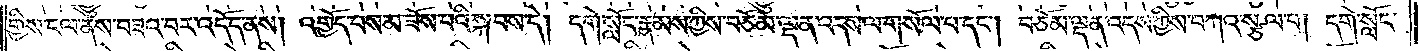གྱིས་ངལ་ནས་བཟའ་བར་འདོད་ནས། འགྱོད་པས་མ་ཟོས་པའི་སྐབས་དེ། དགེ་སློང་རྣམས་ཀྱིས་བཅོམ་ལྡན་འདས་ལ་གསོལ་པ་དང༌། བཅོམ་ལྡན་འདས་ཀྱིས་བཀའ་སྩལ་པ། དགེ་སློང་
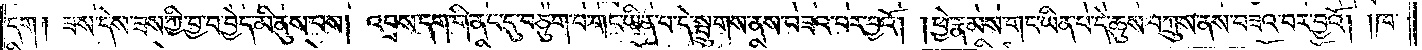དག །ཟས་དེས་ཟས་ཀྱི་བྱ་བ་བྱེད་མི་ནུས་པས། འབྲས་དག་གི་ནང་དུ་བཅུག་པ་གང་ཡིན་པ་དེ་སྤྲུགས་ནས་བཟའ་བར་བྱའོ། །ཕྱེ་རྣམས་གང་ཡིན་པ་དེ་ཆུས་བཀྲུས་ནས་བཟའ་བར་བྱའོ། །ཁ་
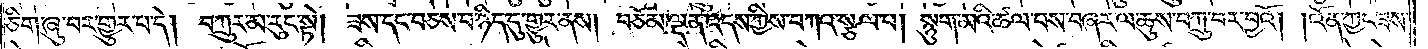ཅིག་ཞུ་བར་གྱུར་པ་དེ། བཀྲུར་མ་རུང་སྟེ། ཟས་དང་བཅས་པ་ཉིད་དུ་གྱུར་ནས། བཅོམ་ལྡན་འདས་ཀྱིས་བཀའ་སྩལ་པ། སྙུག་མའི་ཚལ་བས་བཞར་ལ་ཆུས་བཀྲུ་བར་བྱའོ། །འོན་ཀྱང་ཟས་
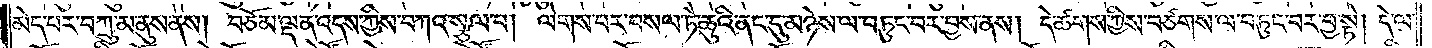མེད་པར་བཀྲུ་མ་ནུས་ནས། བཅོམ་ལྡན་འདས་ཀྱིས་བཀའ་སྩལ་པ། ལེགས་པར་བསལ་ཏེ་ཆུའི་ནང་དུ་མཉེས་ལ་བཏུང་བར་བྱས་ནས། དེ་ཚགས་ཀྱིས་བཙགས་ལ་བཏུང་བར་བྱ་སྟེ། དེ་ལ་
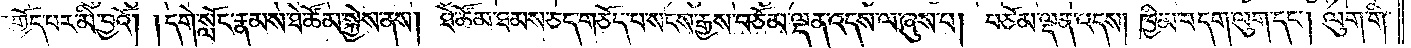འགྱོད་པར་མི་བྱའོ། །དགེ་སློང་རྣམས་ཐེ་ཚོམ་སྐྱེས་ནས། ཐེ་ཚོམ་ཐམས་ཅད་གཅོད་པ་སངས་རྒྱས་བཅོམ་ལྡན་འདས་ལ་ཞུས་པ། བཅོམ་ལྡན་འདས། ཁྱིམ་བདག་ལུག་དང༌། ལུག་གི་
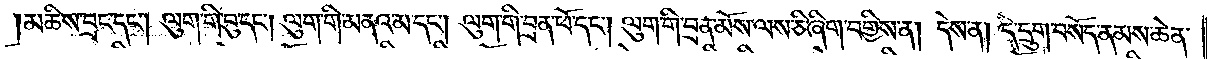།མཆིས་བྲང་དང༌། ལུག་གི་བུ་དང༌། ལུག་གི་མནའ་མ་དང༌། ལུག་གི་བྲན་ཕོ་དང༌། ལུག་གི་བྲན་མོས་ལས་ཅི་ཞིག་བགྱིས་ན། དེས་ན། དེ་དྲུག་བསོད་ནམས་ཆེན་
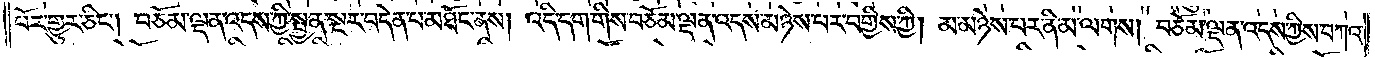པོར་གྱུར་ཅིང༌། བཅོམ་ལྡན་འདས་ཀྱི་སྤྱན་སྔར་བདེན་པ་མཐོང་ནས། འདི་དག་གིས་བཅོམ་ལྡན་འདས་མཉེས་པར་བགྱིས་ཀྱི། མ་མཉེས་པར་ནི་མ་ལགས། བཅོམ་ལྡན་འདས་ཀྱིས་བཀའ་
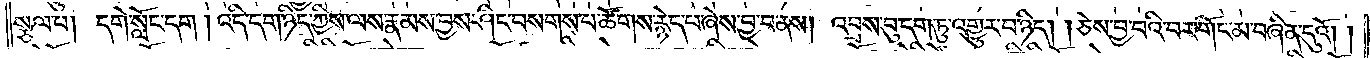སྩལ་པ། དགེ་སློང་དག །འདི་དག་ཉིད་ཀྱིས་ལས་རྣམས་བྱས་ཤིང་བསགས་པ་ཚོགས་རྙེད་པ་ཞེས་བྱ་བ་ནས། འབྲས་བུ་དག་ཏུ་འགྱུར་བ་ཉིད། །ཅེས་བྱ་བའི་བར་གོང་མ་བཞིན་དུའོ། །
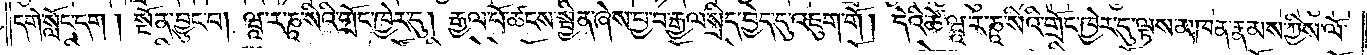དགེ་སློང་དག །སྔོན་བྱུང་བ། ཝཱ་ར་ཎཱ་སིའི་གྲོང་ཁྱེར་དུ། རྒྱལ་པོ་ཚངས་སྦྱིན་ཞེས་བྱ་བ་རྒྱལ་སྲིད་བྱེད་དུ་འཇུག་གོ། དེའི་ཚེ་ཝཱ་ར་ཎཱ་སིའི་གྲོང་ཁྱེར་དུ་ལྟས་མཁན་རྣམས་ཀྱིས་ལོ་
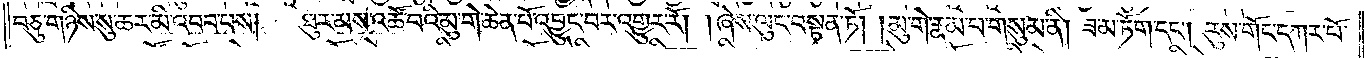བཅུ་གཉིས་སུ་ཆར་མི་འབབ་པས། ཐུར་མས་འཚོ་བའི་མུ་གེ་ཆེན་པོ་འབྱུང་བར་འགྱུར་རོ། །ཞེས་ལུང་བསྟན་ཏོ། །མུ་གེ་རྣམ་པ་གསུམ་ནི། ཟ་མ་ཏོག་དང༌། རུས་གོང་དཀར་པོ་
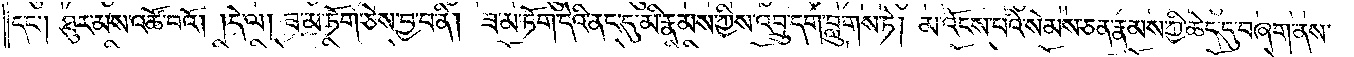དང༌། ཐུར་མས་འཚོ་བའོ། །དེ་ལ། ཟ་མ་ཏོག་ཅེས་བྱ་བ་ནི། ཟ་མ་ཏོག་དེའི་ནང་དུ་མི་རྣམས་ཀྱིས་འབྲུ་དག་བླུགས་ཏེ། མ་འོངས་པའི་སེམས་ཅན་རྣམས་ཀྱི་ཆེད་དུ་བཞག་ནས་
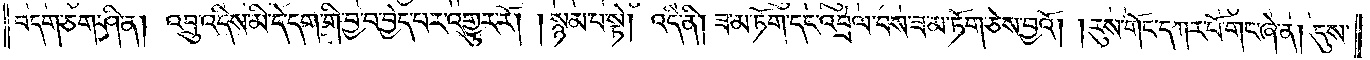བདག་ཅག་ཤི་ན། འབྲུ་འདིས་མི་དེ་དག་གི་བྱ་བ་བྱེད་པར་འགྱུར་རོ། །སྙམ་པ་སྟེ། འདི་ནི། ཟ་མ་ཏོག་དང་འབྲེལ་བས་ཟ་མ་ཏོག་ཅེས་བྱའོ། །རུས་གོང་དཀར་པོ་གང་ཞེ་ན། དུས་
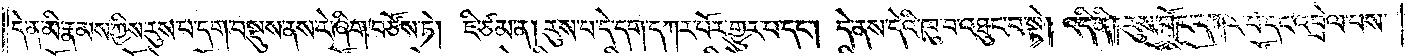དེ་ན་མི་རྣམས་ཀྱིས་རུས་པ་དག་བསྡུས་ནས་རེ་ཞིག་བཙོས་ཏེ། ཇི་ཙམ་ན། རུས་པ་དེ་དག་དཀར་པོར་གྱུར་པ་དང༌། དེ་ནས་དེའི་ཁུ་བ་འཐུང་བ་སྟེ། འདི་ནི། རུས་གོང་དཀར་པོ་དང་འབྲེལ་པས་
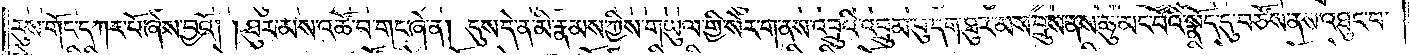རུས་གོང་དཀར་པོ་ཞེས་བྱའོ། །ཐུར་མས་འཚོ་བ་གང་ཞེ་ན། དུས་དེ་ན་མི་རྣམས་ཀྱིས་གཡུལ་གྱི་སེར་གནས་འབྲུའི་འབྲུམ་བུ་དག་ཐུར་མས་བྲུས་ནས་ཆུ་མང་པོའི་སྣོད་དུ་བཙོས་ནས་འཐུང་བ་
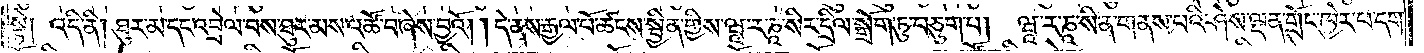སྟེ། འདི་ནི། ཐུར་མ་དང་འབྲེལ་བས་ཐུར་མས་འཚོ་བ་ཞེས་བྱའོ། །དེ་ནས་རྒྱལ་པོ་ཚངས་སྦྱིན་གྱིས་ཝཱ་ར་ཎཱ་སིར་དྲིལ་སྒྲོག་ཏུ་བཅུག་པ། ཝཱ་ར་ཎཱ་སི་ན་གནས་པའི་ཤེས་ལྡན་གྲོང་ཁྱེར་པ་དག་
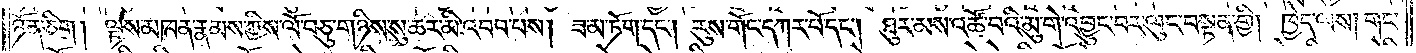ཉོན་ཅིག །ལྟས་མཁན་རྣམས་ཀྱིས་ལོ་བཅུ་གཉིས་སུ་ཆར་མི་འབབ་པས། ཟ་མ་ཏོག་དང༌། རུས་གོང་དཀར་པོ་དང༌། ཐུར་མས་འཚོ་བའི་མུ་གེ་འབྱུང་བར་ལུང་བསྟན་གྱི། ཁྱེད་ལས། གང་
